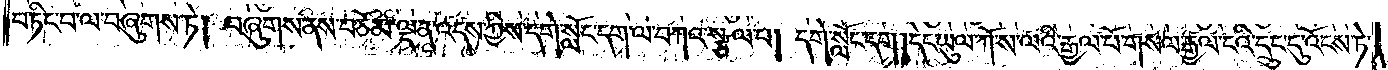བཏིང་བ་ལ་བཞུགས་ཏེ། བཞུགས་ནས་བཅོམ་ལྡན་འདས་ཀྱིས་དགེ་སློང་དག་ལ་བཀའ་སྩལ་པ། དགེ་སློང་དག །དེང་ཡུལ་ཀོ་ས་ལའི་རྒྱལ་པོ་གསལ་རྒྱལ་ངའི་དྲུང་དུ་འོངས་ཏེ་
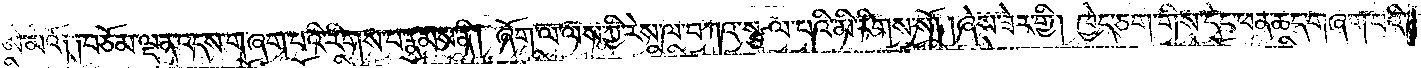ཨེ་མའོ༑ ༑བཅོམ་ལྡན་འདས་གཞག་པའི་རིགས་པ་རྣམས་ནི། ཞོག་ལ་ལས་ཀྱི་རེས་ལ་བཀའ་སྩལ་པའི་མི་རིགས་སོ། །ཞེས་ཟེར་གྱི། ཁྱེད་ཅག་གིས་དེང་ཕན་ཆད་གཞག་པའི་
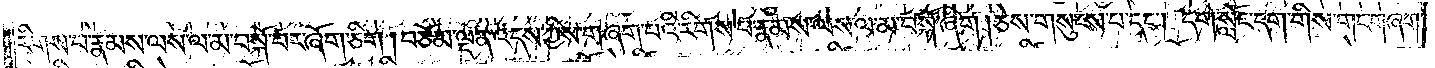རིགས་པ་རྣམས་ལས་ལ་མ་བསྐོ་བར་ཞོག་ཅིག །བཅོམ་ལྡན་འདས་ཀྱིས་གཞག་པའི་རིགས་པ་རྣམས་ལས་ལ་མ་བསྐོ་ཞིག །ཅེས་གསུངས་པ་དང༌། དགེ་སློང་དག་གིས་གང་གཞག་
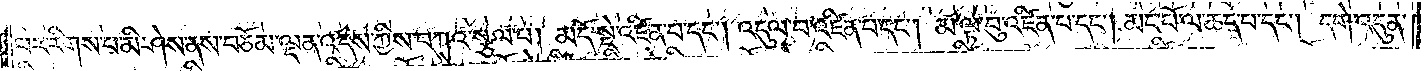པར་རིགས་པ་མི་ཤེས་ནས་བཅོམ་ལྡན་འདས་ཀྱིས་བཀའ་སྩལ་པ། མདོ་སྡེ་འཛིན་པ་དང༌། འདུལ་བ་འཛིན་པ་དང༌། མ་ལྟ་བུ་འཛིན་པ་དང༌། མང་པོ་ལ་ཆད་པ་དང༌། དགེ་འདུན་
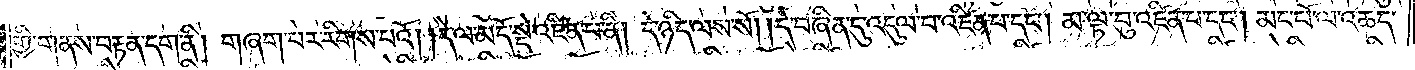གྱི་གནས་བརྟན་དག་ནི། གཞག་པར་རིགས་པའོ། །དེ་ལ་མདོ་སྡེ་འཛིན་པ་ནི། དེ་ཉིད་ལས་སོ། །དེ་བཞིན་དུ་འདུལ་བ་འཛིན་པ་དང༌། མ་ལྟ་བུ་འཛིན་པ་དང༌། མང་པོ་ལ་འཆད་
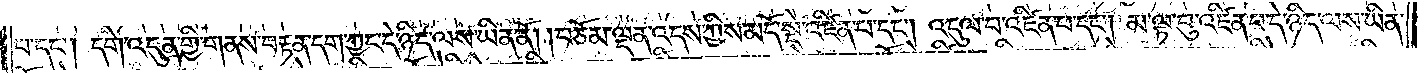པ་དང༌། དགེ་འདུན་གྱི་གནས་བརྟན་དག་ཀྱང་དེ་ཉིད་ལས་ཡིན་ནོ། །བཅོམ་ལྡན་འདས་ཀྱིས་མདོ་སྡེ་འཛིན་པ་དང༌། འདུལ་བ་འཛིན་པ་དང༌། མ་ལྟ་བུ་འཛིན་པ་དེ་ཉིད་ལས་ཡིན་
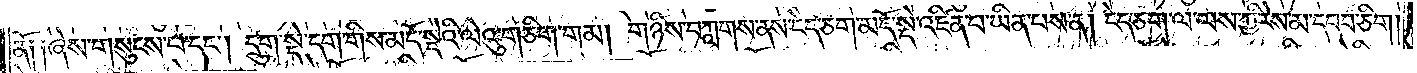ནོ༑ ༑ཞེས་གསུངས་པ་དང༌། དྲུག་སྡེ་དག་གིས་མདོ་སྡེའི་ལེའུ་གཅིག་གམ། གཉིས་བཀླགས་ནས་ངེད་ཅག་མདོ་སྡེ་འཛིན་པ་ཡིན་པས་ན། ངེད་ཅག་ལ་ལས་ཀྱི་རེས་མ་དབབ་ཅིག།
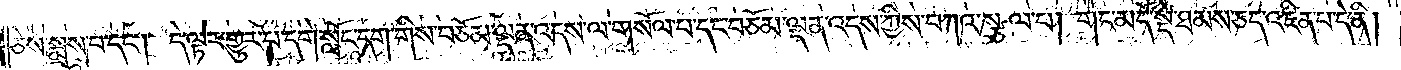ཅེས་སྨྲས་པ་དང༌། དེ་ལྟར་གྱུར་པ་དགེ་སློང་དག་གིས་བཅོམ་ལྡན་འདས་ལ་གསོལ་པ་དང་བཅོམ་ལྡན་འདས་ཀྱིས་བཀའ་སྩལ་པ། གང་མདོ་སྡེ་ཐམས་ཅད་འཛིན་པ་དེ་ནི།
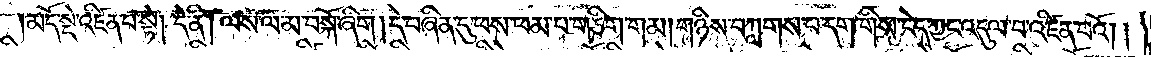མདོ་སྡེ་འཛིན་པ་སྟེ། དེ་ནི། ལས་ལ་མ་བསྐོ་ཞིག །དེ་བཞིན་དུ་ཕས་ཕམ་པ་གཅིག་གམ། གཉིས་བཀླགས་པ་དག་གིས་ངེད་ཀྱང་འདུལ་བ་འཛིན་པའོ། །
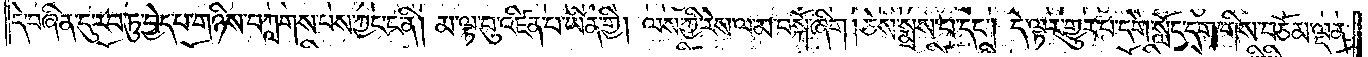དེ་བཞིན་དུ་རབ་ཏུ་བྱེད་པ་གཉིས་བཀླགས་པས་ཀྱང་ང་ནི། མ་ལྟ་བུ་འཛིན་པ་ཡིན་གྱི། ལས་ཀྱི་རེས་ལ་མ་བསྐོ་ཞིག །ཅེས་སྨྲས་པ་དང༌། དེ་ལྟར་གྱུར་པ་དགེ་སློང་དག་གིས་བཅོམ་ལྡན་
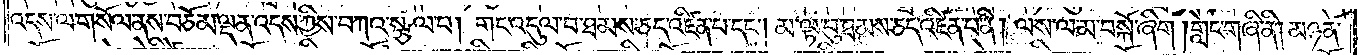འདས་ལ་གསོལ་ནས་བཅོམ་ལྡན་འདས་ཀྱིས་བཀའ་སྩལ་པ། གང་འདུལ་བ་ཐམས་ཅད་འཛིན་པ་དང༌། མ་ལྟ་བུ་ཐམས་ཅད་འཛིན་པ་ནི། ལས་ལ་མ་བསྐོ་ཞིག །གླེང་གཞི་ནི། མཉན་
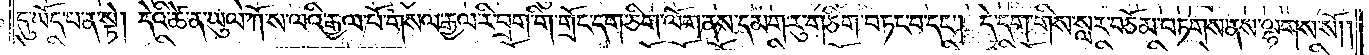དུ་ཡོད་པ་ན་སྟེ། དེའི་ཚེ་ན་ཡུལ་ཀོ་ས་ལའི་རྒྱལ་པོ་གསལ་རྒྱལ་རི་བྲག་གི་གྲོང་དག་ཅིག་ལོག་ནས་དམག་རུ་གཅིག་བཏང་བ་དང༌། དེ་དག་གིས་སླར་བཅོམ་བཏགས་ནས་ལྷགས་སོ། །
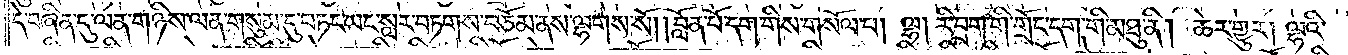དེ་བཞིན་དུ་ལན་གཉིས་ལན་གསུམ་དུ་བཏང་ཡང་སླར་བཏགས་བཅོམ་ནས་ལྷགས་སོ། །བློན་པོ་དག་གིས་གསོལ་པ། ལྷ། རི་བྲག་གི་གྲོང་དག་གི་མཐུ་ནི། ཆེར་གྱུར། ལྷའི་
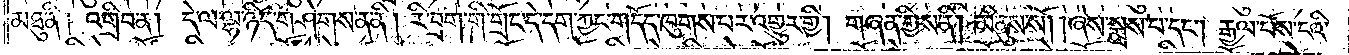མཐུ་ནི། འགྲིབ་ན། དེ་ལ་ལྷ་ཉིད་གཤེགས་ན་ནི། རི་བྲག་གི་གྲོང་དེ་དག་ཀྱང་གདོད་ཁུགས་པར་འགྱུར་གྱི། གཞན་གྱིས་ནི། མི་ནུས་སོ། །ཞེས་སྨྲས་པ་དང༌། རྒྱལ་པོས་ངའི་
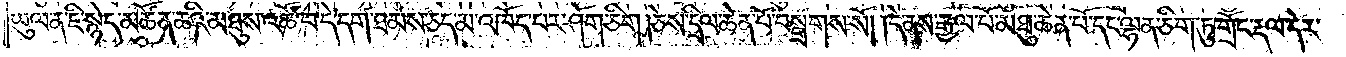ཡུལ་ན་ཇི་སྙེད་མཚོན་ཆའི་མཐུས་འཚོ་བ་དེ་དག་ཐམས་ཅད་མ་འཁོད་པར་ཤོག་ཅིག །ཅེས་དྲིལ་ཆེན་པོ་བསྒྲགས་སོ། །དེ་ནས་རྒྱལ་པོ་མཐུ་ཆེན་པོ་དང་ལྷན་ཅིག་ཏུ་གྲོང་རྡལ་དེར་
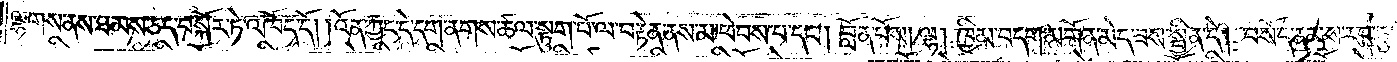ལྷགས་ནས་ཐམས་ཅད་བསྐོར་ཏེ་འཁོད་དོ། །འོན་ཀྱང་དེ་དག་ནགས་ཚལ་སྟུག་པོ་ལ་བརྟེན་ནས་མ་ཕེབས་པ་དང༌། བློན་པོས། ལྷ། ཁྱིམ་བདག་མགོན་མེད་ཟས་སྦྱིན་དེ། བསོད་ནམས་རབ་ཏུ་
